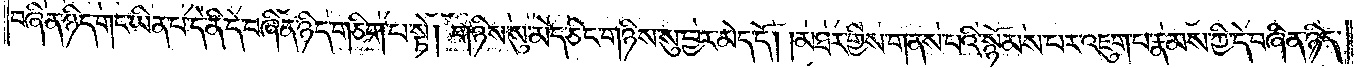བཞིན་ཉིད་གང་ཡིན་པ་དེ་ནི་དེ་བཞིན་ཉིད་གཅིག་པ་སྟེ། གཉིས་སུ་མེད་ཅིང་གཉིས་སུ་བྱར་མེད་དོ། །མཐར་གྱིས་གནས་པའི་སྙོམས་པར་འཇུག་པ་རྣམས་ཀྱི་དེ་བཞིན་ཉིད་
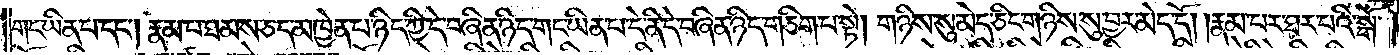གང་ཡིན་པ་དང༌། རྣམ་པ་ཐམས་ཅད་མཁྱེན་པ་ཉིད་ཀྱི་དེ་བཞིན་ཉིད་གང་ཡིན་པ་དེ་ནི་དེ་བཞིན་ཉིད་གཅིག་པ་སྟེ། གཉིས་སུ་མེད་ཅིང་གཉིས་སུ་བྱར་མེད་དོ། །རྣམ་པར་ཐར་པའི་སྒོ་
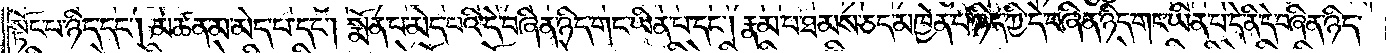སྟོང་པ་ཉིད་དང༌། མཚན་མ་མེད་པ་དང༌། སྨོན་པ་མེད་པའི་དེ་བཞིན་ཉིད་གང་ཡིན་པ་དང༌། རྣམ་པ་ཐམས་ཅད་མཁྱེན་པ་ཉིད་ཀྱི་དེ་བཞིན་ཉིད་གང་ཡིན་པ་དེ་ནི་དེ་བཞིན་ཉིད་
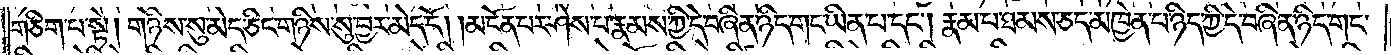གཅིག་པ་སྟེ། གཉིས་སུ་མེད་ཅིང་གཉིས་སུ་བྱར་མེད་དོ། །མངོན་པར་ཤེས་པ་རྣམས་ཀྱི་དེ་བཞིན་ཉིད་གང་ཡིན་པ་དང༌། རྣམ་པ་ཐམས་ཅད་མཁྱེན་པ་ཉིད་ཀྱི་དེ་བཞིན་ཉིད་གང་
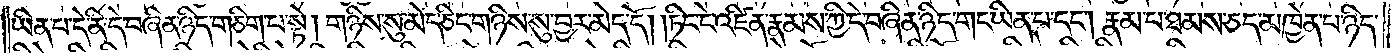ཡིན་པ་དེ་ནི་དེ་བཞིན་ཉིད་གཅིག་པ་སྟེ། གཉིས་སུ་མེད་ཅིང་གཉིས་སུ་བྱར་མེད་དོ། །ཏིང་ངེ་འཛིན་རྣམས་ཀྱི་དེ་བཞིན་ཉིད་གང་ཡིན་པ་དང༌། རྣམ་པ་ཐམས་ཅད་མཁྱེན་པ་ཉིད་
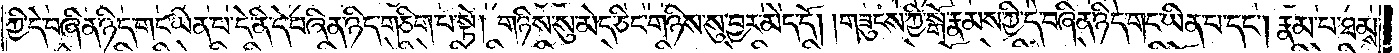ཀྱི་དེ་བཞིན་ཉིད་གང་ཡིན་པ་དེ་ནི་དེ་བཞིན་ཉིད་གཅིག་པ་སྟེ། གཉིས་སུ་མེད་ཅིང་གཉིས་སུ་བྱར་མེད་དོ། །གཟུངས་ཀྱི་སྒོ་རྣམས་ཀྱི་དེ་བཞིན་ཉིད་གང་ཡིན་པ་དང༌། རྣམ་པ་ཐམས་
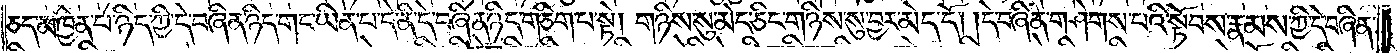ཅད་མཁྱེན་པ་ཉིད་ཀྱི་དེ་བཞིན་ཉིད་གང་ཡིན་པ་དེ་ནི་དེ་བཞིན་ཉིད་གཅིག་པ་སྟེ། གཉིས་སུ་མེད་ཅིང་གཉིས་སུ་བྱར་མེད་དོ། །དེ་བཞིན་གཤེགས་པའི་སྟོབས་རྣམས་ཀྱི་དེ་བཞིན་
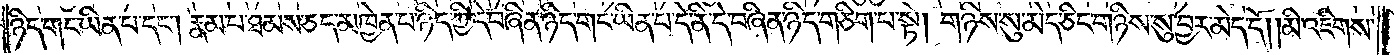ཉིད་གང་ཡིན་པ་དང༌། རྣམ་པ་ཐམས་ཅད་མཁྱེན་པ་ཉིད་ཀྱི་དེ་བཞིན་ཉིད་གང་ཡིན་པ་དེ་ནི་དེ་བཞིན་ཉིད་གཅིག་པ་སྟེ། གཉིས་སུ་མེད་ཅིང་གཉིས་སུ་བྱར་མེད་དོ། །མི་འཇིགས་
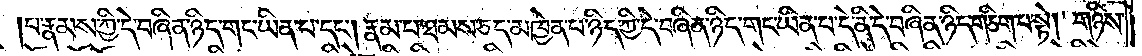པ་རྣམས་ཀྱི་ད་བཞིན་ཉིད་གང་ཡིན་པ་དང༌། རྣམ་པ་ཐམས་ཅད་མཁྱེན་པ་ཉིད་ཀྱི་དེ་བཞིན་ཉིད་གང་ཡིན་པ་དེ་ནི་དེ་བཞིན་ཉིད་གཅིག་པ་སྟེ། གཉིས་
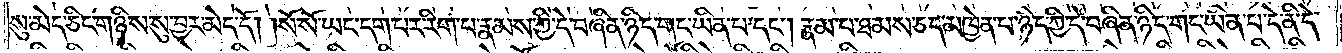སུ་མེད་ཅིང་གཉིས་སུ་བྱར་མེད་དོ། །སོ་སོ་ཡང་དག་པར་རིག་པ་རྣམས་ཀྱི་དེ་བཞིན་ཉིད་གང་ཡིན་པ་དང༌། རྣམ་པ་ཐམས་ཅད་མཁྱེན་པ་ཉིད་ཀྱི་དེ་བཞིན་ཉིད་གང་ཡིན་པ་དེ་ནི་དེ་
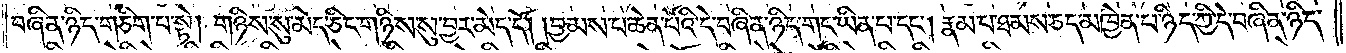བཞིན་ཉིད་གཅིག་པ་སྟེ། གཉིས་སུ་མེད་ཅིང་གཉིས་སུ་བྱར་མེད་དོ། །བྱམས་པ་ཆེན་པོའི་དེ་བཞིན་ཉིད་གང་ཡིན་པ་དང༌། རྣམ་པ་ཐམས་ཅད་མཁྱེན་པ་ཉིད་ཀྱི་དེ་བཞིན་ཉིད་
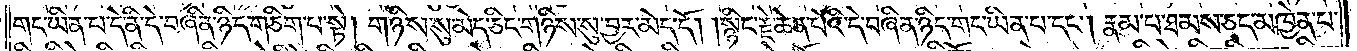གང་ཡིན་པ་དེ་ནི་དེ་བཞིན་ཉིད་གཅིག་པ་སྟེ། གཉིས་སུ་མེད་ཅིང་གཉིས་སུ་བྱར་མེད་དོ། །སྙིང་རྗེ་ཆེན་པོའི་དེ་བཞིན་ཉིད་གང་ཡིན་པ་དང༌། རྣམ་པ་ཐམས་ཅད་མཁྱེན་པ་
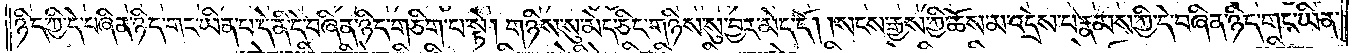ཉིད་ཀྱི་དེ་བཞིན་ཉིད་གང་ཡིན་པ་དེ་ནི་དེ་བཞིན་ཉིད་གཅིག་པ་སྟེ། གཉིས་སུ་མེད་ཅིང་གཉིས་སུ་བྱར་མེད་དོ། །སངས་རྒྱས་ཀྱི་ཆོས་མ་འདྲེས་པ་རྣམས་ཀྱི་དེ་བཞིན་ཉིད་གང་ཡིན་
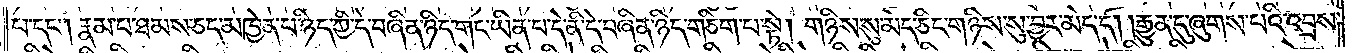པ་དང༌། རྣམ་པ་ཐམས་ཅད་མཁྱེན་པ་ཉིད་ཀྱི་དེ་བཞིན་ཉིད་གང་ཡིན་པ་དེ་ནི་དེ་བཞིན་ཉིད་གཅིག་པ་སྟེ། གཉིས་སུ་མེད་ཅིང་གཉིས་སུ་བྱར་མེད་དོ། །རྒྱུན་དུ་ཞུགས་པའི་འབྲས་
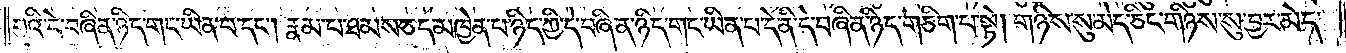བུའི་དེ་བཞིན་ཉིད་གང་ཡིན་པ་དང༌། རྣམ་པ་ཐམས་ཅད་མཁྱེན་པ་ཉིད་ཀྱི་དེ་བཞིན་ཉིད་གང་ཡིན་པ་དེ་ནི་དེ་བཞིན་ཉིད་གཅིག་པ་སྟེ། གཉིས་སུ་མེད་ཅིང་གཉིས་སུ་བྱར་མེད་
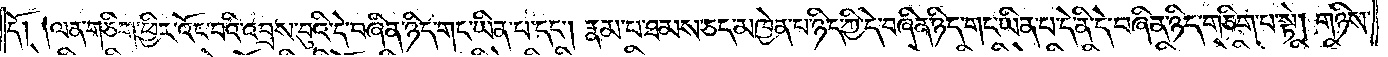དོ། །ལན་གཅིག་ཕྱིར་འོང་བའི་འབྲས་བུའི་དེ་བཞིན་ཉིད་གང་ཡིན་པ་དང༌། རྣམ་པ་ཐམས་ཅད་མཁྱེན་པ་ཉིད་ཀྱི་དེ་བཞིན་ཉིད་གང་ཡིན་པ་དེ་ནི་དེ་བཞིན་ཉིད་གཅིག་པ་སྟེ། གཉིས་
